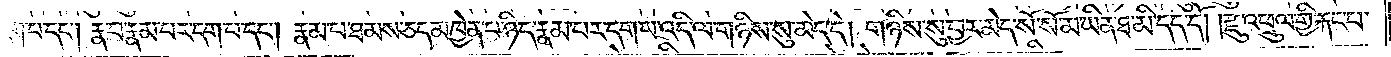དག་པ་དང༌། རྣ་བ་རྣམ་པར་དག་པ་དང༌། རྣམ་པ་ཐམས་ཅད་མཁྱེན་པ་ཉིད་རྣམ་པར་དག་པ་འདི་ལ་གཉིས་སུ་མེད་དེ། གཉིས་སུ་བྱར་མེད་སོ་སོ་མ་ཡིན་ཐ་མི་དད་དོ། །རྫུ་འཕྲུལ་གྱི་རྐང་པ་
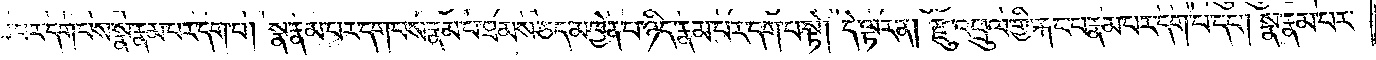རྣམ་པར་དག་པས་སྣ་རྣམ་པར་དག་པ། སྣ་རྣམ་པར་དག་པས་རྣམ་པ་ཐམས་ཅད་མཁྱེན་པ་ཉིད་རྣམ་པར་དག་པ་སྟེ། དེ་ལྟར་ན། རྫུ་འཕྲུལ་གྱི་རྐང་པ་རྣམ་པར་དག་པ་དང༌། སྣ་རྣམ་པར་
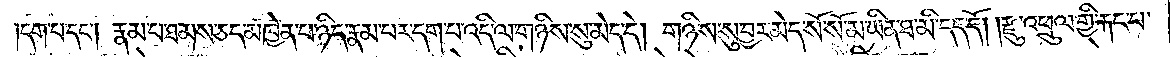དག་པ་དང༌། རྣམ་པ་ཐམས་ཅད་མཁྱེན་པ་ཉིད་རྣམ་པར་དག་པ་འདི་ལ་གཉིས་སུ་མེད་དེ། གཉིས་སུ་བྱར་མེད་སོ་སོ་མ་ཡིན་ཐ་མི་དད་དོ། །རྫུ་འཕྲུལ་གྱི་རྐང་པ་
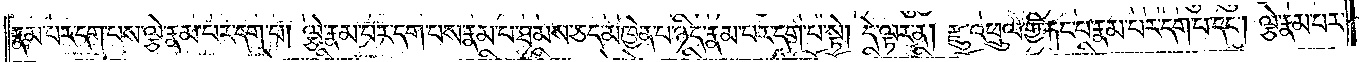རྣམ་པར་དག་པས་ལྕེ་རྣམ་པར་དག་པ། ལྕེ་རྣམ་པར་དག་པས་རྣམ་པ་ཐམས་ཅད་མཁྱེན་པ་ཉིད་རྣམ་པར་དག་པ་སྟེ། དེ་ལྟར་ན། རྫུ་འཕྲུལ་གྱི་རྐང་པ་རྣམ་པར་དག་པ་དང༌། ལྕེ་རྣམ་པར་
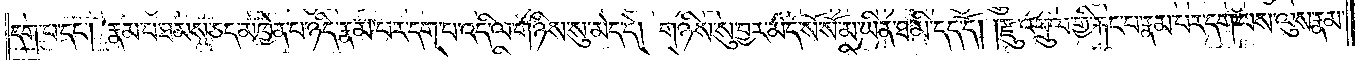དག་པ་དང༌། རྣམ་པ་ཐམས་ཅད་མཁྱེན་པ་ཉིད་རྣམ་པར་དག་པ་འདི་ལ་གཉིས་སུ་མེད་དེ། གཉིས་སུ་བྱར་མེད་སོ་སོ་མ་ཡིན་ཐ་མི་དད་དོ། །རྫུ་འཕྲུལ་གྱི་རྐང་པ་རྣམ་པར་དག་པས་ལུས་རྣམ་
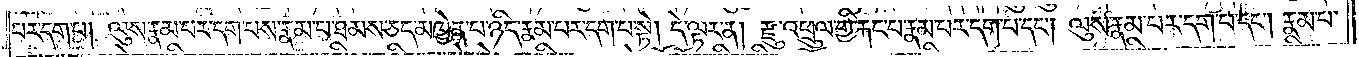པར་དག་པ། ལུས་རྣམ་པར་དག་པས་རྣམ་པ་ཐམས་ཅད་མཁྱེན་པ་ཉིད་རྣམ་པར་དག་པ་སྟེ། དེ་ལྟར་ན། རྫུ་འཕྲུལ་གྱི་རྐང་པ་རྣམ་པར་དག་པ་དང༌། ལུས་རྣམ་པར་དག་པ་དང༌། རྣམ་པ་
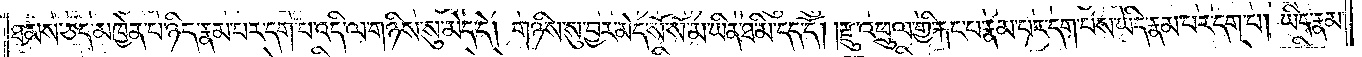ཐམས་ཅད་མཁྱེན་པ་ཉིད་རྣམ་པར་དག་པ་འདི་ལ་གཉིས་སུ་མེད་དེ། གཉིས་སུ་བྱར་མེད་སོ་སོ་མ་ཡིན་ཐ་མི་དད་དོ། །རྫུ་འཕྲུལ་གྱི་རྐང་པ་རྣམ་པར་དག་པས་ཡིད་རྣམ་པར་དག་པ། ཡིད་རྣམ་
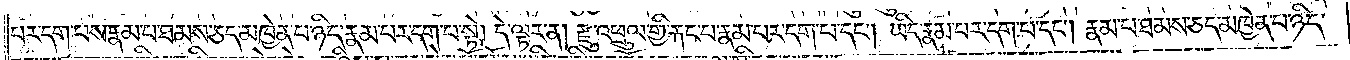པར་དག་པས་རྣམ་པ་ཐམས་ཅད་མཁྱེན་པ་ཉིད་རྣམ་པར་དག་པ་སྟེ། དེ་ལྟར་ན། རྫུ་འཕྲུལ་གྱི་རྐང་པ་རྣམ་པར་དག་པ་དང༌། ཡིད་རྣམ་པར་དག་པ་དང༌། རྣམ་པ་ཐམས་ཅད་མཁྱེན་པ་ཉིད་
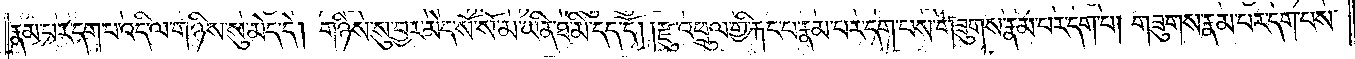རྣམ་པར་དག་པ་འདི་ལ་གཉིས་སུ་མེད་དེ། གཉིས་སུ་བྱར་མེད་སོ་སོ་མ་ཡིན་ཐ་མི་དད་དོ། །རྫུ་འཕྲུལ་གྱི་རྐང་པ་རྣམ་པར་དག་པས་གཟུགས་རྣམ་པར་དག་པ། གཟུགས་རྣམ་པར་དག་པས་
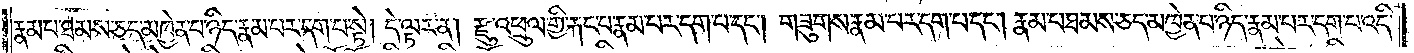རྣམ་པ་ཐམས་ཅད་མཁྱེན་པ་ཉིད་རྣམ་པར་དག་པ་སྟེ། དེ་ལྟར་ན། རྫུ་འཕྲུལ་གྱི་རྐང་པ་རྣམ་པར་དག་པ་དང༌། གཟུགས་རྣམ་པར་དག་པ་དང༌། རྣམ་པ་ཐམས་ཅད་མཁྱེན་པ་ཉིད་རྣམ་པར་དག་པ་འདི་
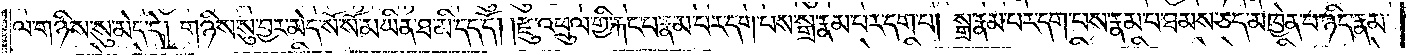ལ་གཉིས་སུ་མེད་དེ། གཉིས་སུ་བྱར་མེད་སོ་སོ་མ་ཡིན་ཐ་མི་དད་དོ། །རྫུ་འཕྲུལ་གྱི་རྐང་པ་རྣམ་པར་དག་པས་སྒྲ་རྣམ་པར་དག་པ། སྒྲ་རྣམ་པར་དག་པས་རྣམ་པ་ཐམས་ཅད་མཁྱེན་པ་ཉིད་རྣམ་
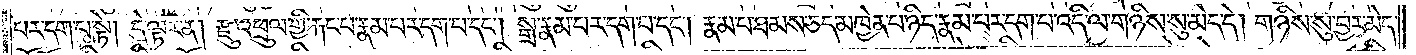པར་དག་པ་སྟེ། དེ་ལྟར་ན། རྫུ་འཕྲུལ་གྱི་རྐང་པ་རྣམ་པར་དག་པ་དང༌། སྒྲ་རྣམ་པར་དག་པ་དང༌། རྣམ་པ་ཐམས་ཅད་མཁྱེན་པ་ཉིད་རྣམ་པར་དག་པ་འདི་ལ་གཉིས་སུ་མེད་དེ། གཉིས་སུ་བྱར་མེད་
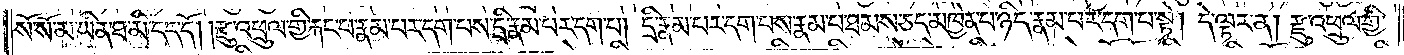སོ་སོ་མ་ཡིན་ཐ་མི་དད་དོ། །རྫུ་འཕྲུལ་གྱི་རྐང་པ་རྣམ་པར་དག་པས་དྲི་རྣམ་པར་དག་པ། དྲི་རྣམ་པར་དག་པས་རྣམ་པ་ཐམས་ཅད་མཁྱེན་པ་ཉིད་རྣམ་པར་དག་པ་སྟེ། དེ་ལྟར་ན། རྫུ་འཕྲུལ་གྱི་
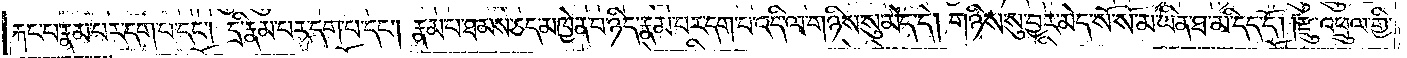རྐང་པ་རྣམ་པར་དག་པ་དང༌། དྲི་རྣམ་པར་དག་པ་དང༌། རྣམ་པ་ཐམས་ཅད་མཁྱེན་པ་ཉིད་རྣམ་པར་དག་པ་འདི་ལ་གཉིས་སུ་མེད་དེ། གཉིས་སུ་བྱར་མེད་སོ་སོ་མ་ཡིན་ཐ་མི་དད་དོ། །རྫུ་འཕྲུལ་གྱི་
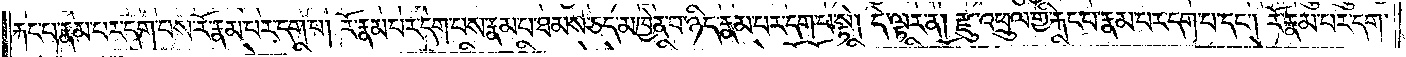རྐང་པ་རྣམ་པར་དག་པས་རོ་རྣམ་པར་དག་པ། རོ་རྣམ་པར་དག་པས་རྣམ་པ་ཐམས་ཅད་མཁྱེན་པ་ཉིད་རྣམ་པར་དག་པ་སྟེ། དེ་ལྟར་ན། རྫུ་འཕྲུལ་གྱི་རྐང་པ་རྣམ་པར་དག་པ་དང༌། རོ་རྣམ་པར་དག་
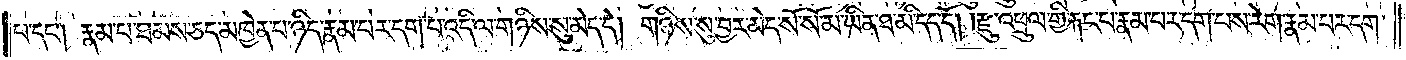པ་དང༌། རྣམ་པ་ཐམས་ཅད་མཁྱེན་པ་ཉིད་རྣམ་པར་དག་པ་འདི་ལ་གཉིས་སུ་མེད་དེ། གཉིས་སུ་བྱར་མེད་སོ་སོ་མ་ཡིན་ཐ་མི་དད་དོ། །རྫུ་འཕྲུལ་གྱི་རྐང་པ་རྣམ་པར་དག་པས་རེག་རྣམ་པར་དག་
